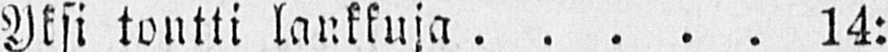Yksi tontti lankkuja 14:
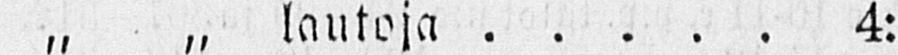„ „ lautoja 4:
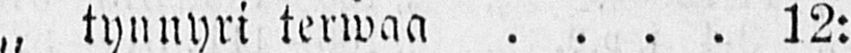„ tynnyri terwaa l2:
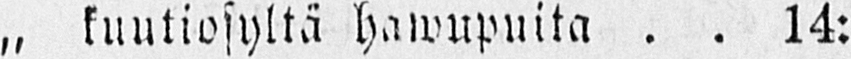,, kuutiosyltä hawupuita 14:
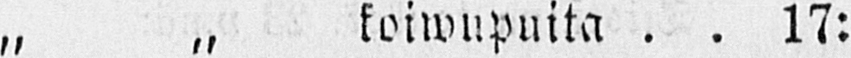„ „ koiwupuita 17:
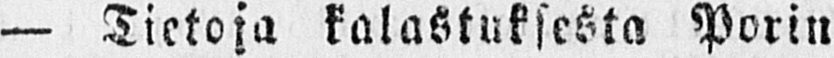— Tietoja kalastuksesta Porin
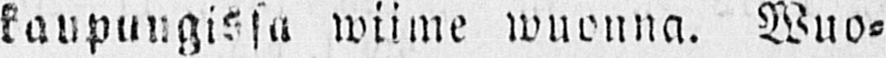kaupungissa wiime wuonna. Wuo-
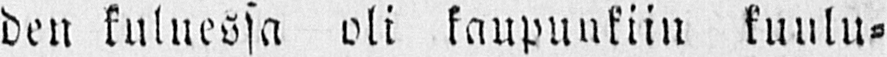den kuluessa oli kaupunkiin kuulu-
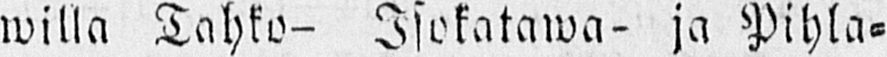willa Tahko- Isokatawa- ja Pihla-
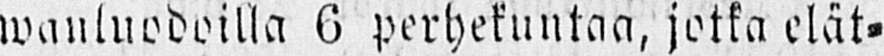wanluodoilla 6 perhekuntaa, jotka elät-
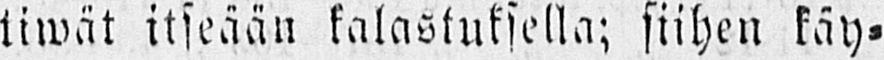tiwät itseään kalastuksella; siihen käy-
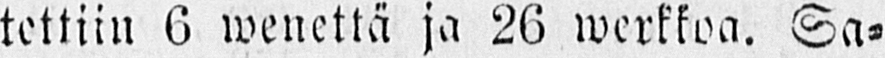tettiin 6 wenettä ja 26 werkkoa. Sa-
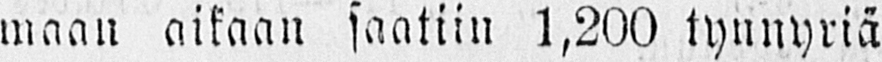maan aikaan saatiin 1,200 tynnyriä
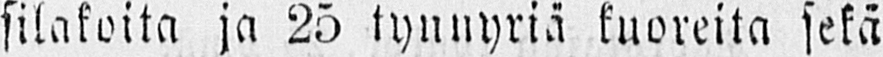silakoita ja 25 tynnyriä kuoreita sekä
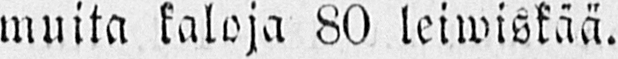muita kaloja 80 leiwiskää.
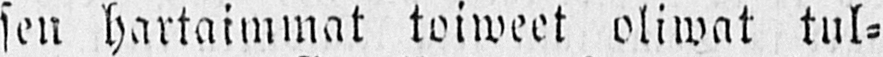sen hartaimmat toiweet oliwat tul-
